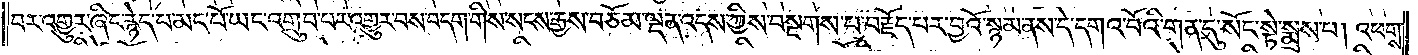བར་འགྱུར་ཞིང་རྙེད་པ་མང་པོ་ཡང་འགྲུབ་པར་འགྱུར་བས་བདག་གིས་སངས་རྒྱས་བཅོམ་ལྡན་འདས་ཀྱིས་བསྔགས་པ་བརྗོད་པར་བྱའོ་སྙམ་ནས་དེ་དགའ་བོའི་གན་དུ་སོང་སྟེ་སྨྲས་པ། འཕགས་
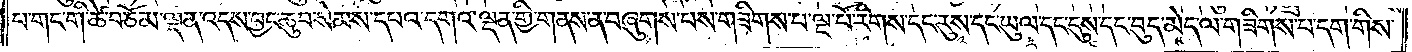པ་གང་གི་ཚེ་བཅོམ་ལྡན་འདས་བྱང་ཆུབ་སེམས་དཔའ་དགའ་ལྡན་གྱི་གནས་ན་བཞུགས་པས་གཟིགས་པ་ལྔ་པོ་རིགས་དང་རུས་དང་ཡུལ་དང་དུས་དང་བུད་མེད་ལ་གཟིགས་པ་དག་གིས་
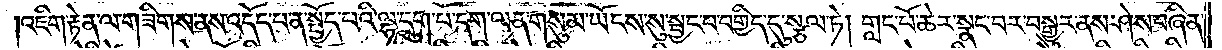འཇིག་རྟེན་ལ་གཟིགས་ནས་འདོད་པ་ན་སྤྱོད་པའི་ལྷ་དྲུག་པོ་དག་ལན་གསུམ་ཡོངས་སུ་སྦྱང་བ་བགྱིད་དུ་སྩལ་ཏེ། གླང་པོ་ཆེར་སྣང་བར་བསྒྱུར་ནས་ཤེས་བཞིན་
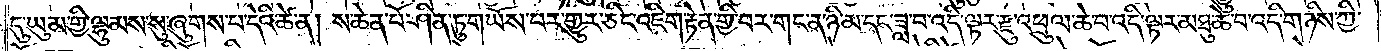དུ་ཡུམ་གྱི་ལྷུམས་སུ་ཞུགས་པ་དེའི་ཚེ་ན། ས་ཆེན་པོ་ཤིན་ཏུ་གཡོས་པར་གྱུར་ཅིང་འཇིག་རྟེན་གྱི་བར་གང་ན་ཉི་མ་དང་ཟླ་བ་འདི་ལྟར་རྫུ་འཕྲུལ་ཆེ་བ་འདི་ལྟར་མཐུ་ཆེ་བ་འདི་གཉིས་ཀྱི་
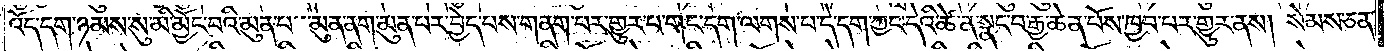འོད་དག་ཉམས་སུ་མི་མྱོང་བའི་མུན་པ་མུན་ནག་མུན་པར་བྱེད་པས་གནག་པར་གྱུར་པ་གང་དག་ལགས་པ་དེ་དག་ཀྱང་དེའི་ཚེ་ན་སྣང་བ་རྒྱ་ཆེན་པོས་ཁྱབ་པར་གྱུར་ནས། སེམས་ཅན་
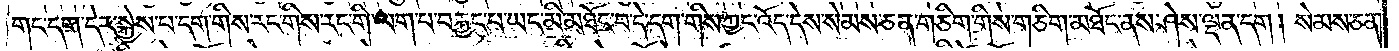གང་དག་དེར་སྐྱེས་པ་དག་གིས་རང་གིས་རང་གི་ལག་པ་བརྐྱང་པ་ཡང་མི་མཐོང་བ་དེ་དག་གིས་ཀྱང་འོད་དེས་སེམས་ཅན་གཅིག་གིས་གཅིག་མཐོང་ནས་ཤེས་ལྡན་དག །སེམས་ཅན་
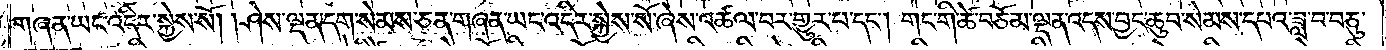གཞན་ཡང་འདིར་སྐྱེས་སོ། །ཤེས་ལྡན་དག་སེམས་ཅན་གཞན་ཡང་འདིར་སྐྱེས་སོ་ཞེས་འཚལ་བར་གྱུར་པ་དང༌། གང་གི་ཚེ་བཅོམ་ལྡན་འདས་བྱང་ཆུབ་སེམས་དཔའ་ཟླ་བ་བཅུ་
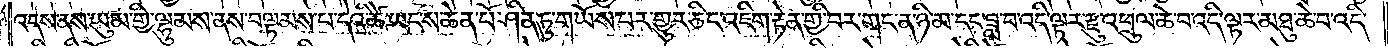འདས་ནས་ཡུམ་གྱི་ལྷུམས་ནས་བལྟམས་པ་དེའི་ཚེ་ཡང་ས་ཆེན་པོ་ཤིན་ཏུ་གཡོས་པར་གྱུར་ཅིང་འཇིག་རྟེན་གྱི་བར་གང་ན་ཉི་མ་དང་ཟླ་བ་འདི་ལྟར་རྫུ་འཕྲུལ་ཆེ་བ་འདི་ལྟར་མཐུ་ཆེ་བ་འདི་
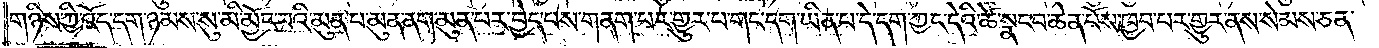གཉིས་ཀྱི་འོད་དག་ཉམས་སུ་མི་མྱོང་བའི་མུན་པ་མུན་ནག་མུན་པར་བྱེད་པས་གནག་པར་གྱུར་པ་གང་དག་ཡིན་པ་དེ་དག་ཀྱང་དེའི་ཚེ་སྣང་བ་ཆེན་པོས་ཁྱབ་པར་གྱུར་ནས་སེམས་ཅན་
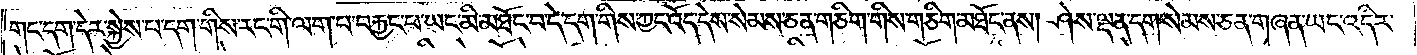གང་དག་དེར་སྐྱེས་པ་དག་གིས་རང་གི་ལག་པ་བརྐྱང་པ་ཡང་མི་མཐོང་བ་དེ་དག་གིས་ཀྱང་འོད་དེས་སེམས་ཅན་གཅིག་གིས་གཅིག་མཐོང་ནས། ཤེས་ལྡན་དག་སེམས་ཅན་གཞན་ཡང་འདིར་
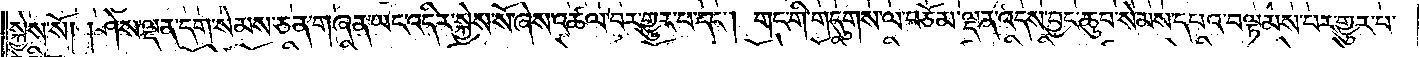སྐྱེས་སོ། །ཤེས་ལྡན་དག་སེམས་ཅན་གཞན་ཡང་འདིར་སྐྱེས་སོ་ཞེས་འཚལ་བར་གྱུར་པ་དང༌། གང་གི་གདུགས་ལ་བཅོམ་ལྡན་འདས་བྱང་ཆུབ་སེམས་དཔའ་བལྟམས་པར་གྱུར་པ་
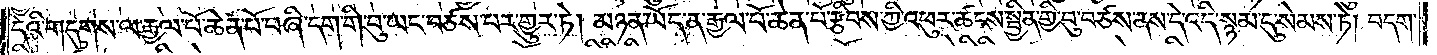དེའི་གདུགས་ལ་རྒྱལ་པོ་ཆེན་པོ་བཞི་དག་གི་བུ་ཡང་བཙས་པར་གྱུར་ཏེ། མཉན་ཡོད་ན་རྒྱལ་པོ་ཆེན་པོ་རྩིབས་ཀྱི་འཕུར་ཚངས་སྦྱིན་གྱི་བུ་བཙས་ནས་དེ་འདི་སྙམ་དུ་སེམས་ཏེ། བདག་
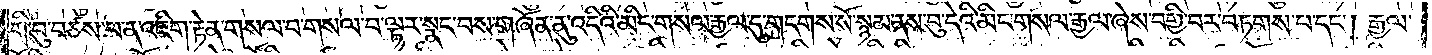གི་བུ་བཙས་པ་ན་འཇིག་རྟེན་གསལ་བ་གསལ་བ་ལྟར་སྣང་བས་གཞོན་ནུ་འདིའི་མིང་གསལ་རྒྱལ་དུ་གདགས་སོ་སྙམ་ནས་བུ་དེའི་མིང་གསལ་རྒྱལ་ཞེས་བགྱི་བར་བཏགས་པ་དང༌། རྒྱལ་
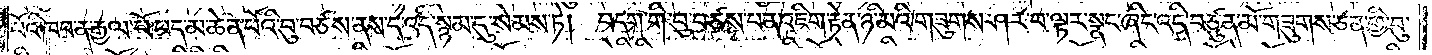པོའི་ཁབ་ན་རྒྱལ་པོ་པད་མ་ཆེན་པོའི་བུ་བཙས་ནས་དེ་འདི་སྙམ་དུ་སེམས་ཏེ། བདག་གི་བུ་བཙས་པ་ན་འཇིག་རྟེན་ཉི་མའི་གཟུགས་ཤར་བ་ལྟར་སྣང་ཞིང་འདི་བཙུན་མོ་གཟུགས་ཅན་གྱི་བུ་
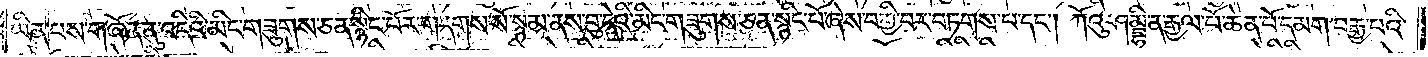ཡིན་པས་གཞོན་ནུ་འདིའི་མིང་གཟུགས་ཅན་སྙིང་པོར་གདགས་སོ་སྙམ་ནས་བུ་དེའི་མིང་གཟུགས་ཅན་སྙིང་པོ་ཞེས་བགྱི་བར་བཏགས་པ་དང༌། ཀོའུ་ཤམྦྷི་ན་རྒྱལ་པོ་ཆེན་པོ་དམག་བརྒྱ་བའི་
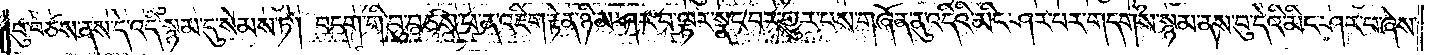བུ་བཙས་ནས་དེ་འདི་སྙམ་དུ་སེམས་ཏེ། བདག་གི་བུ་བཙས་པ་ན་འཇིག་རྟེན་ཉི་མ་ཤར་བ་ལྟར་སྣང་བར་གྱུར་པས་གཞོན་ནུ་འདིའི་མིང་ཤར་པར་གདགས་སྙམ་ནས་བུ་དེའི་མིང་ཤར་པ་ཞེས་
